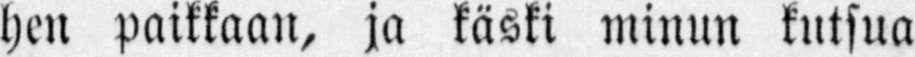hen paikkaan, ja käski minun kutsua
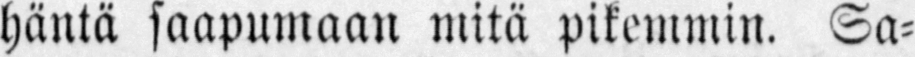häutä saapumaan mitä pikemmin. Sa-
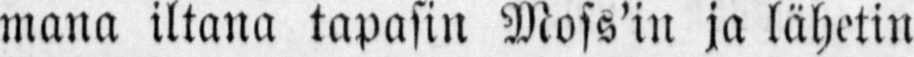mana iltana tapasin Moss'in ja lähetin
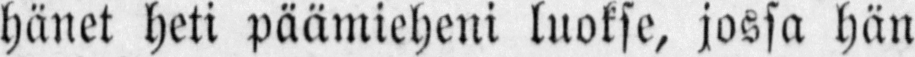hänet heti päämieheni luokse, jossa hän
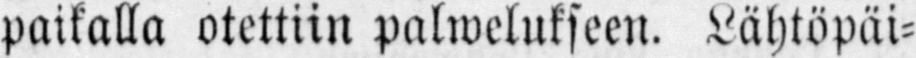paikalla otettiin palwelukseen. Lähtöpäi-
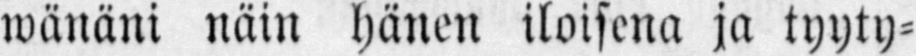wänäni näin hänen iloisena ja tyyty-
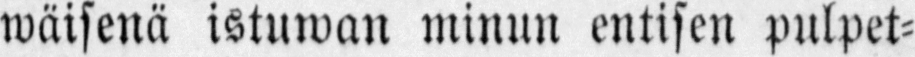wäisenä istuwan minun entisen pulpet-
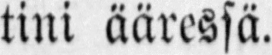tiin ääressä.
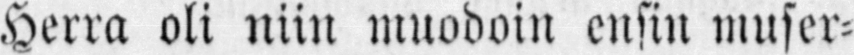Herra oli niin muodoin ensin muser-
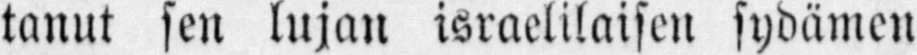tanut sen lujan israelilaisen sydämen
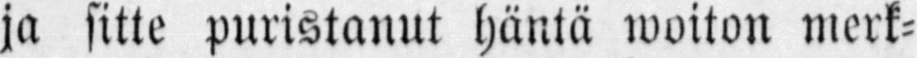ja sitte puristanut häntä woiton merk-
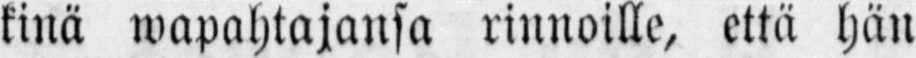kinä wapahtajansa rinnoille, että hän
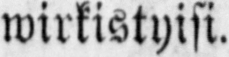wirkistyisi.
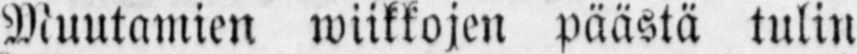Muutamien wiikkojen päästä tulin
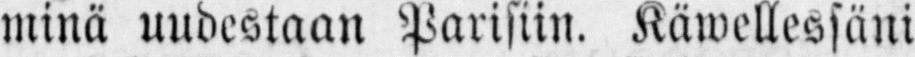minä uudestaan Parisiin. Käwellessäni
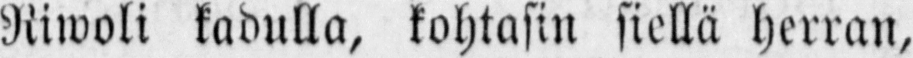Riwoli kadulla, kohtasin siellä herran,
